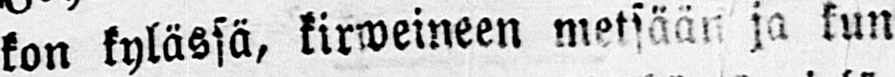kon kylässä, kirweineen metsään ja kun
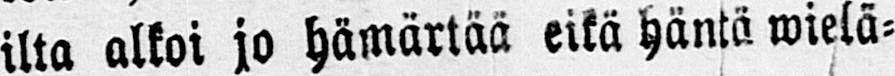ilta alkoi jo hämärtää eikä häntä wielä-
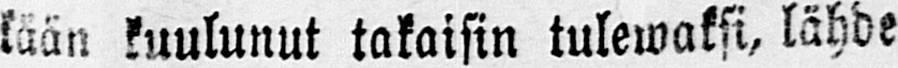k ään kuulunut takaisin tulewaksi, lähde
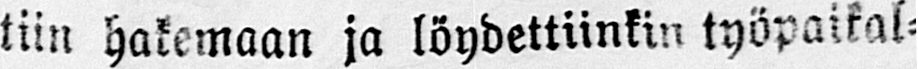tiin hakemaan ja löydettiinkin työpaikal-
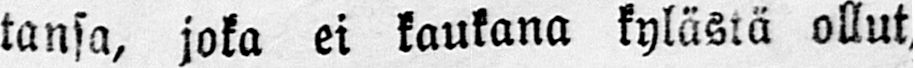tansa, joka ei kaukana kyläsiä ollut
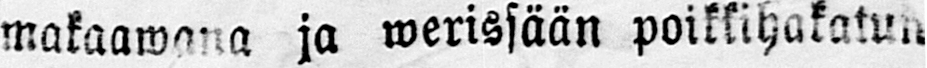makaawana ja werissään poikkihakatun
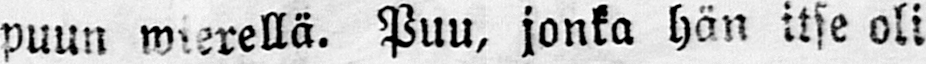puun wierellä. Puu, jonka hän itse oli
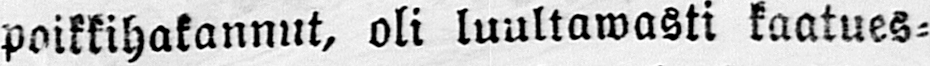poikkihakannut, oli luultawasti kaatues-
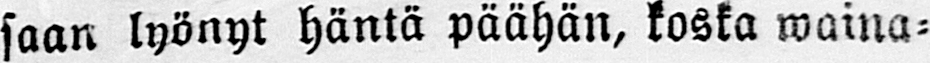saan lyönyt häntä päähän, koska waina-
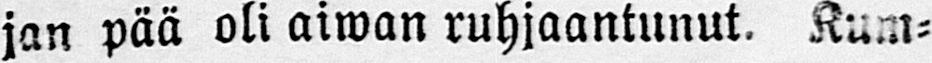jan pää oli aiwan ruhjaantunut. Kum-
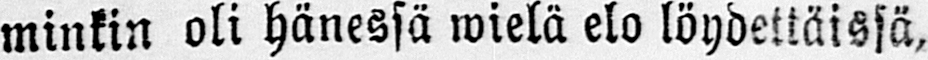minkin oli hänessä wielä elo löydettäissä,
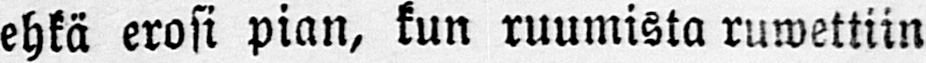ehkä erosi pian, kun ruumista ruwettiin
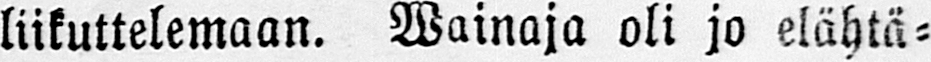liikuttelemaan. Wainaja oli jo elähtä-
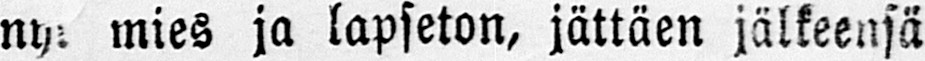nyt mies ja lapseton, jättäen jälkeensä
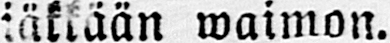iäkkään waimon.
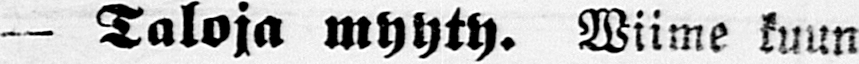— Taloja myyty. Wiime kuun
